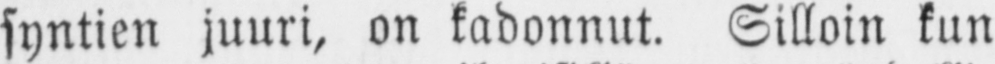syntien juuri, on kadonnut. Silloin kun
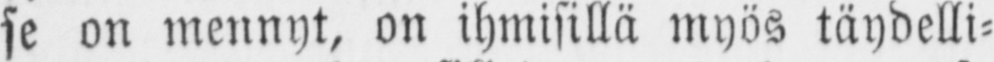se on mennyt, on ihmisillä myös täydelli-
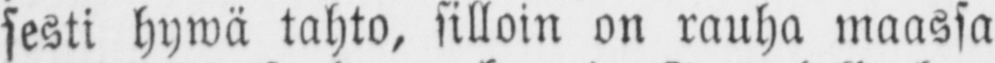sesti hywä tahto, silloin on rauha maassa
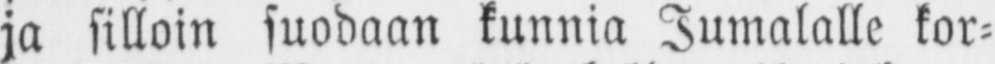ja silloin suodaan kunnia Jumalalle kor-
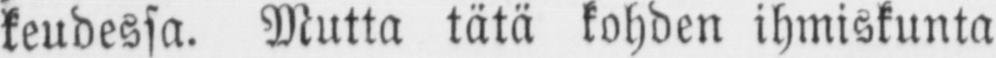keudessa. Mutta tätä kohden ihmiskunta
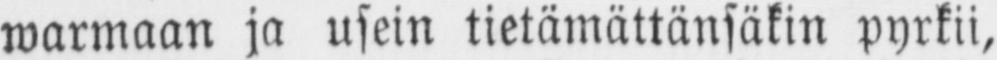warmaan ja usein tietämättänsäkin pyrkii,
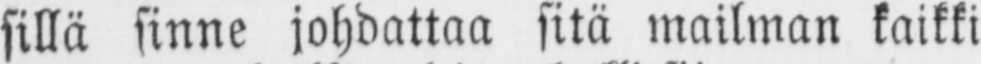sillä sinne johdattaa sitä mailman kaikki
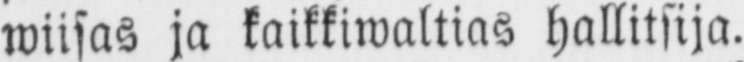wiisas ja kaikkiwaltias hallitsija.
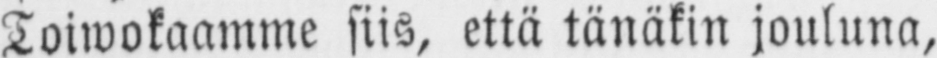Toiwokaamme siis, että tänäkin jouluna,
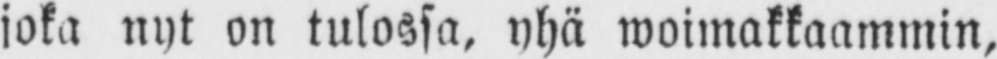joka nyt on tulossa, yhä woimakkaammin,
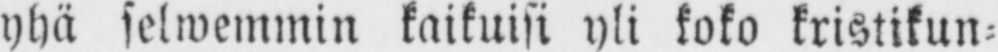yhä selwemmin kaikuisi yli koko kristikun-
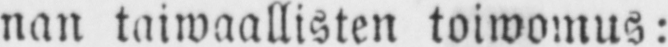nan taiwaallisten toiwomus:
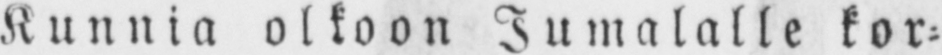Kunnia olkoon Jumalalle kor-
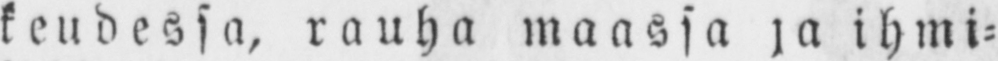keudessa, rauha maassa ja ihmi-
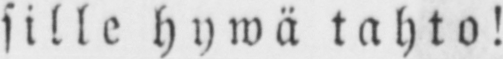sille hywä tahto!
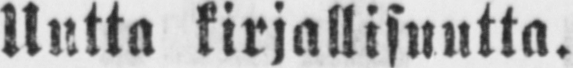Uutta kirjallisuutta.
